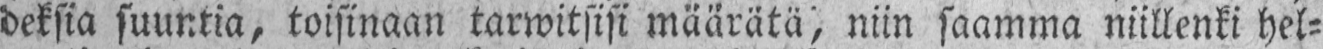deksia suuntia, toisinaan tarwitsisi määrätä, niin saamina niillenki hel-
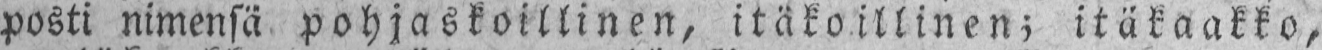posti nimensä pohjaskoillinen, itäkoillinen; itäkaakko,
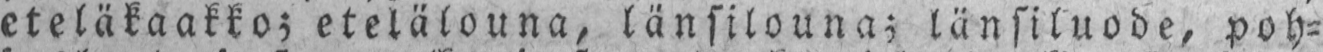eteläkaakko; etelälouna, länsilouna; länsiluode, poh-
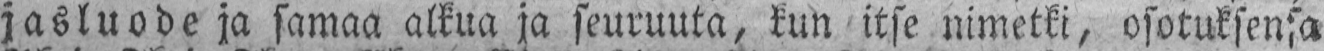jasluode ja samaa alkua ja seuruuta, kun itse nimetki, osotuksensa
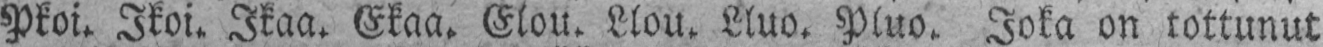Pkoi. Ikoi. Ikaa. Ekaa. Elou. Llou. Lluo. Pluo. Joka on tottunut
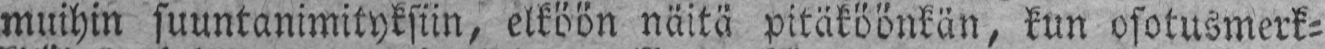muihin suuntanimityksiin, elköön näitä pitäköönkän, kun osotusmerk-
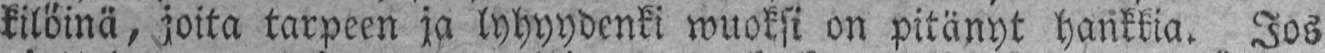kilöinä, josta tarpeen ja lyhyydenki wuoksi on pitänyt hankkia. Jos
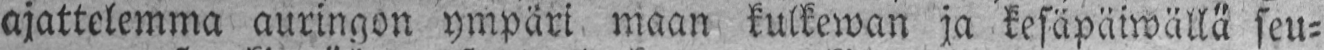ajattelemma auringon ympäri maan kulkewan ja kesäpäiwällä seu-
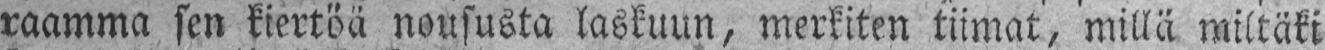raamma sen kiertöä noususta laskuun, merkiten tiimat, millä miltäki
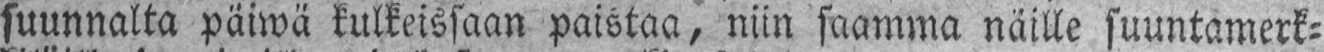suunnalta päiwä kalkeissaan paistaa, niin saamma näille suuntamerk-
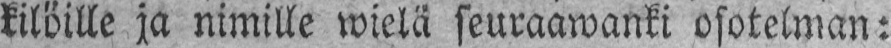kilöille ja nimille wielä seuraawanki osotelman:
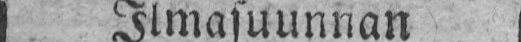Ilmasuunnan
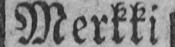Merkki
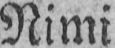Nimi
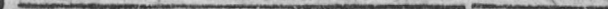Paiwän kultaki suunnalta
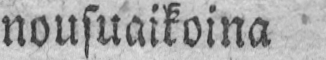nousuaikoina
